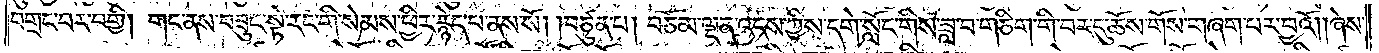བགྲང་བར་བགྱི། གང་ནས་བཟུང་སྟེ་རང་གི་སེམས་ཕྱིར་རྙེད་པ་ནས་སོ། །བཙུན་པ། བཅོམ་ལྡན་འདས་ཀྱིས་དགེ་སློང་གིས་ཟླ་བ་གཅིག་གི་བར་དུ་ཆོས་གོས་གཞག་པར་བྱའོ། །ཞེས་
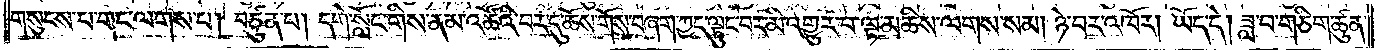གསུངས་པ་གང་ལགས་པ། བཙུན་པ། དགེ་སློང་གིས་ནམ་འཚོའི་བར་དུ་ཆོས་གོས་བཞག་ཀྱང་ལྟུང་བར་མི་འགྱུར་བ་ལྟ་མཆིས་ལགས་སམ། ཉེ་བར་འཁོར། ཡོད་དེ། ཟླ་བ་གཅིག་ཚུན་
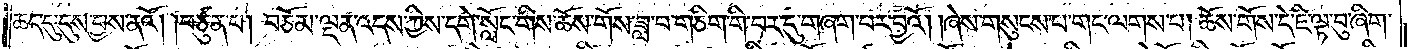ཆད་དུ་དུས་བྱས་ནའོ། །བཙུན་པ། བཅོམ་ལྡན་འདས་ཀྱིས་དགེ་སློང་གིས་ཆོས་གོས་ཟླ་བ་གཅིག་གི་བར་དུ་གཞག་པར་བྱའོ། །ཞེས་གསུངས་པ་གང་ལགས་པ། ཆོས་གོས་དེ་ཇི་ལྟ་བུ་ཞིག་
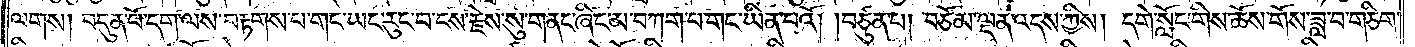ལགས། བདུན་པོ་དག་ལས་བརྟགས་པ་གང་ཡང་རུང་པ་ངས་རྗེས་སུ་གནང་ཞིང་མ་བཀག་པ་གང་ཡིན་པའོ། །བཙུན་པ། བཅོམ་ལྡན་འདས་ཀྱིས། དགེ་སློང་གིས་ཆོས་གོས་ཟླ་བ་གཅིག་
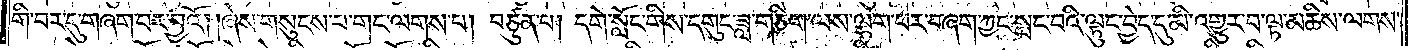གི་བར་དུ་གཞག་པར་བྱའོ། །ཞེས་གསུངས་པ་གང་ལགས་པ། བཙུན་པ། དགེ་སློང་གིས་དགུང་ཟླ་གཅིག་ལས་ལྷག་པར་བཞག་ཀྱང་སྤང་བའི་ལྟུང་བྱེད་དུ་མི་འགྱུར་བ་ལྟ་མཆིས་ལགས་
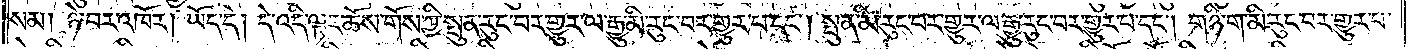སམ། ཉེ་བར་འཁོར། ཡོད་དེ། དེ་འདི་ལྟར་ཆོས་གོས་ཀྱི་སྤུན་རུང་བར་གྱུར་བ་རྒྱུ་མི་རུང་བར་གྱུར་པ་དང༌། སྤུན་མི་རུང་བར་གྱུར་ལ་རྒྱུ་རུང་བར་གྱུར་པ་དང༌། གཉི་ག་མི་རུང་བར་གྱུར་པ་
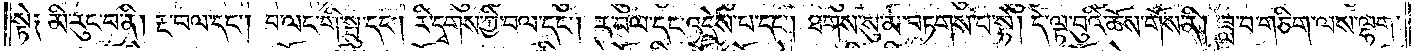སྟེ༑ མི་རུང་བ་ནི། རྔ་བལ་དང༌། བ་ལང་གི་སྤུ་དང༌། རི་དྭགས་ཀྱི་བལ་དང༌། ར་བལ་དང་འདྲེས་པ་དང༌། ཐགས་སུ་མ་བཏགས་པ་སྟེ། དེ་ལྟ་བུའི་ཆོས་གོས་ནི། ཟླ་བ་གཅིག་ལས་ལྷག་
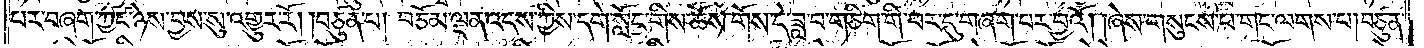པར་བཞག་ཀྱང་ཉེས་བྱས་སུ་འགྱུར་རོ། །བཙུན་པ། བཅོམ་ལྡན་འདས་ཀྱིས་དགེ་སློང་གིས་ཆོས་གོས་དེ་ཟླ་བ་གཅིག་གི་བར་དུ་གཞག་པར་བྱའོ། །ཞེས་གསུངས་པ་གང་ལགས་པ། བཙུན་
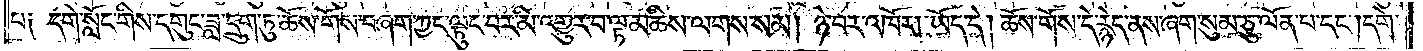པ༑ དགེ་སློང་གིས་དགུང་ཟླ་དྲུག་ཏུ་ཆོས་གོས་བཞག་ཀྱང་ལྟུང་བར་མི་འགྱུར་བ་ལྟ་མཆིས་ལགས་སམ། ཉེ་བར་འཁོར། ཡོད་དེ། ཆོས་གོས་དེ་རྙེད་ནས་ཞག་སུམ་ཅུ་ལོན་པ་དང༌། དགེ་
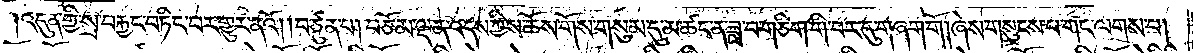།འདུན་གྱི་སྲ་བརྐྱང་བཏིང་བར་གྱུར་ནའོ། །བཙུན་པ། བཅོམ་ལྡན་འདས་ཀྱིས་ཆོས་གོས་གསུམ་དུ་མ་ཚང་ན་ཟླ་བ་གཅིག་གི་བར་དུ་གཞག་གོ། ཞེས་གསུངས་པ་གང་ལགས་པ།
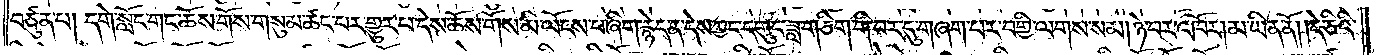བཙུན་པ། དགེ་སློང་གང་ཆོས་གོས་གསུམ་ཚང་པར་གྱུར་པ་དེས་ཆོས་གོས་མི་ལོངས་པ་ཞིག་རྙེད་ན་དེས་ཀྱང་དགུང་ཟླ་གཅིག་གི་བར་དུ་གཞག་པར་བགྱི་ལགས་སམ། ཉེ་བར་འཁོར། མ་ཡིན་ནོ། །དེ་ཅིའི་
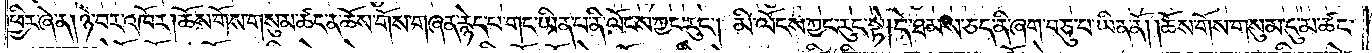ཕྱིར་ཞེ་ན། ཉེ་བར་འཁོར། ཆོས་གོས་གསུམ་ཚང་ན་ཆོས་གོས་གཞན་རྙེད་པ་གང་ཡིན་པ་ནི་ལོངས་ཀྱང་རུང༌། མི་ལོངས་ཀྱང་རུང་སྟེ། དེ་ཐམས་ཅད་ནི་ཞག་བཅུ་པ་ཡིན་ནོ། །ཆོས་གོས་གསུམ་དུ་མ་ཚང་
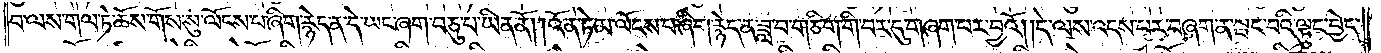བ་ལས་གལ་ཏེ་ཆོས་གོས་སུ་ལོངས་པ་ཞིག་རྙེད་ན་དེ་ཡང་ཞག་བཅུ་པ་ཡིན་ནོ། །འོན་ཏེ་མ་ལོངས་པ་ཞིག་རྙེད་ན་ཟླ་བ་གཅིག་གི་བར་དུ་གཞག་པར་བྱའོ། །དེ་ལས་འདས་པར་བཞག་ན་སྤང་བའི་ལྟུང་བྱེད་
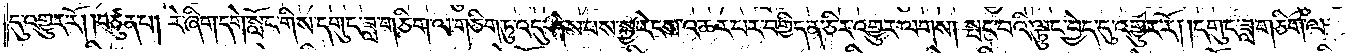དུ་འགྱུར་རོ། །བཙུན་པ། རེ་ཞིག་དགེ་སློང་གིས་དགུང་ཟླ་གཅིག་ལ་གཅིག་ཏུ་འདུ་ཤེས་པས་སྐྱ་རེངས་འཆར་པར་བགྱིད་ན་ཅིར་འགྱུར་ལགས། སྤང་བའི་ལྟུང་བྱེད་དུ་འགྱུར་རོ། །དགུང་ཟླ་གཅིག་ལ་
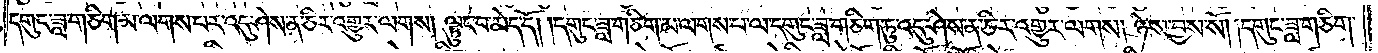དགུང་ཟླ་གཅིག་མ་ལགས་པར་འདུ་ཤེས་ན་ཅིར་འགྱུར་ལགས། ལྟུང་བ་མེད་དོ། །དགུང་ཟླ་གཅིག་མ་ལགས་པ་ལ་དགུང་ཟླ་གཅིག་ཏུ་འདུ་ཤེས་ན་ཅིར་འགྱུར་ལགས། ཉེས་བྱས་སོ། །དགུང་ཟླ་གཅིག་
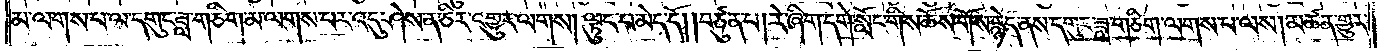མ་ལགས་པ་ལ་དགུང་ཟླ་གཅིག་མ་ལགས་པར་འདུ་ཤེས་ན་ཅིར་འགྱུར་ལགས། ལྟུང་བ་མེད་དོ། །བཙུན་པ། རེ་ཞིག་དགེ་སློང་གིས་ཆོས་གོས་རྙེད་ནས་དགུང་ཟླ་གཅིག་ལགས་པ་ལས། མཚན་གྱུར་
